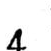4
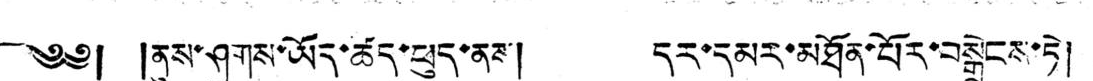༄༅། །ནུས་ཤུགས་ཡོད་ཚད་ཕུད་ནས། དར་དམར་མཐོན་པོར་བསྒྲེངས་ཏེ།
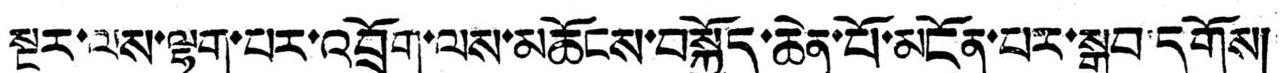སྔར་ལས་ལྷག་པར་འབྲོག་ལས་མཆོངས་བསྐྱོད་ཆེན་པོ་མངོན་པར་སྒྲུབ་དགོས།
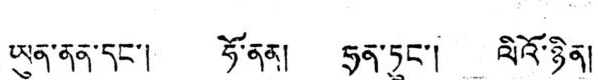ཡུན་ནན་དང་། ཧོ་ནན། ཧྲན་ཏུང་། ལིའོ་ཉིན།
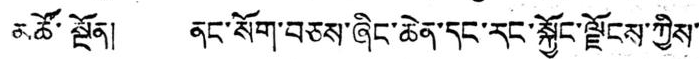མཚོ་སྔོན། ནང་སོག་བཅས་ཞིང་ཆེན་དང་རང་སྐྱོང་ལྗོངས་ཀྱིས་
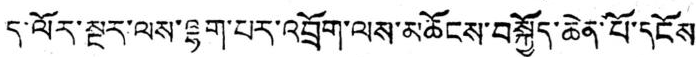ད་ལོར་སྔར་ལས་ལྷག་པར་འབྲོག་ལས་མཆོངས་བསྐྱོད་ཆེན་པོ་དངོས
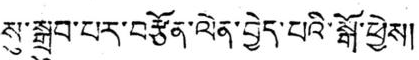སུ་སྒྲུབ་པར་བརྩོན་ལེན་བྱེད་པའི་སྒོ་ཕྱེས།
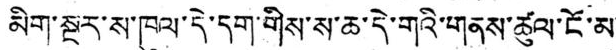མིག་སྔར་ས་ཁུལ་དེ་དག་གིས་ས་ཆ་དེ་གའི་གནས་ཚུལ་ངོ་མ་
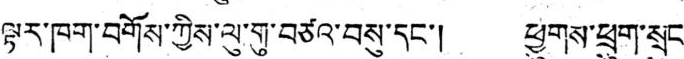ལྟར་ཁག་བགོས་ཀྱིས་ལུ་གུ་བཙའ་བསུ་དང་། ཕྱུགས་ཕྲུག་སྲུང་
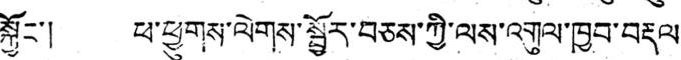སྐྱོང་། ཕ་ཕྱུགས་ལེགས་སྦྱོར་བཅས་ཀྱི་ལས་འགུལ་ཁྱབ་བརྡལ་
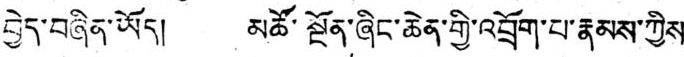བྱེད་བཞིན་ཡོད། མཚོ་སྔོན་ཞིང་ཆེན་གྱི་འབྲོག་པ་རྣམས་ཀྱིས་
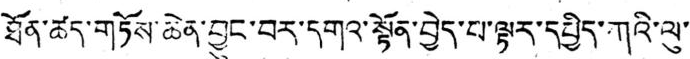ཐོན་ཚད་གཏོས་ཆེན་བྱུང་བར་དགའ་སྟོན་བྱེད་པ་ལྟར་དཔྱིད་ཀའི་ལུ་
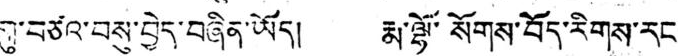ཀུ་བཙའ་བསུ་བྱེད་བཞིན་ཡོད། རྨ་ལྷོ་སོགས་བོད་རིགས་རང་
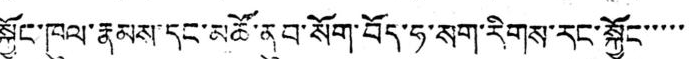སྐྱོང་ཁུལ་རྣམས་དང་མཚོ་ནུབ་སོག་བོད་ཧ་སག་རིགས་རང་སྐྱོང་་་་་
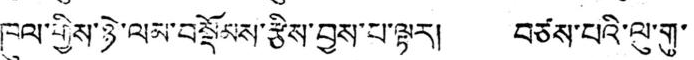ཁུལ་གྱིས་ཉེ་ལམ་བསྡོམས་རྩིས་བྱས་པ་ལྟར། བཙས་པའི་ལུ་གུ་
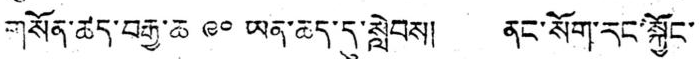གསོན་ཚད་བརྒྱ་ཆ ༩༠ ཡན་ཆད་དུ་སླེབས། ནང་སོགས་རང་སྐྱོང་
